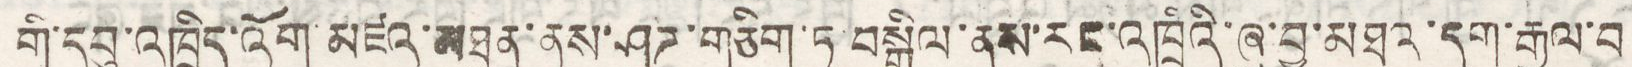གི་དབུ་འཁྲིད་འོག མཛའ་མཐུན་ནུས་ཤུཌ་གཅིག་ཏུ བསྒྲིལ་ནས་རང་འཁྲིའི་ཞུ་བྱ་མཐའ་དག་རྒྱལ་བ
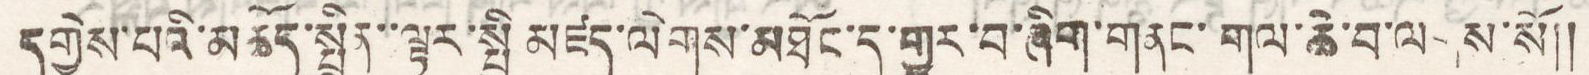དགྱེས་པའི་མཆོད་སྤྲིན་་ལྟར་སྤྱི མཛད་ལེགས་མཐོང་དུ་གྱུར་བ་ཞིག་གནང་གལ་ཆེ་བ་ལགས་སོ།།
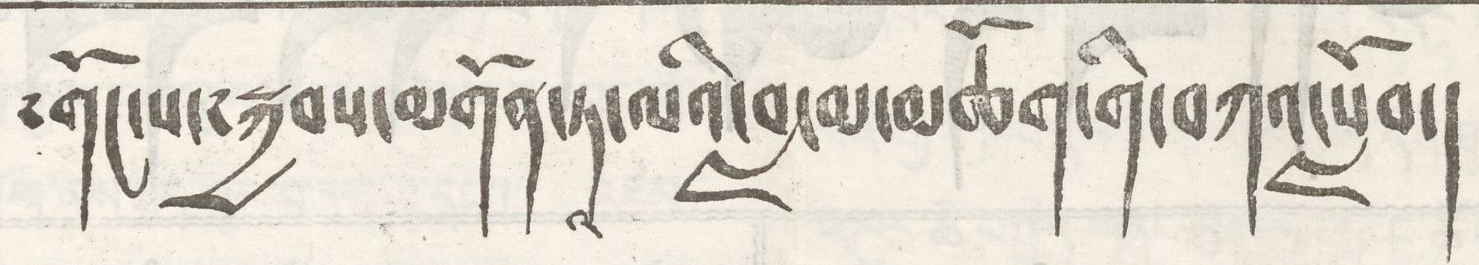༸གོང་ས་༸སྐྱབས་མགོན་ཏཱ་ལའི་བླ་མ་མཆོག་གི་བཀའ་སློབ།
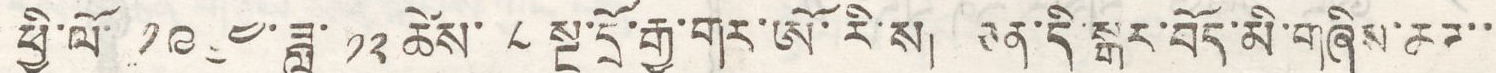ཕྱི་ལོ་ ༡༩༦༤ ཟླ་ ༡༢ ཚེས་ ༨ ཉིན་སྔ་དྲོ་རྒྱ་གར་ཨོ་རི་ས། ཅན་དི་སྒར་བོད་མི་གཞིས་ཆཌ་་
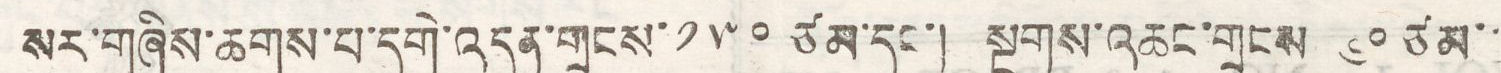སར་གཞིས་ཆགས་པ་དགེ་འདུན་གྲངས་ ༡༥༠ ཙམ་དང་། སྔགས་འཆང་གྲངས ༦༠ ཙམ་
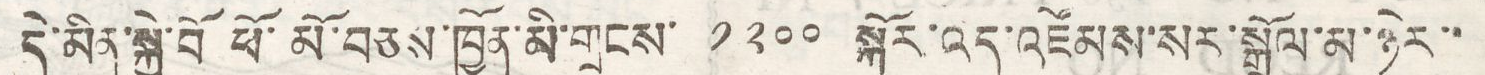དེ་མིན་སྐྱེ་བོ ཕོ་མོ་བཅས་ཁྱོན་མི་གྲངས་ ༡༢༠༠ སྐོར་འདུ་འཛོམས་སར་སྒྲོལ་མ་ཉེར་་
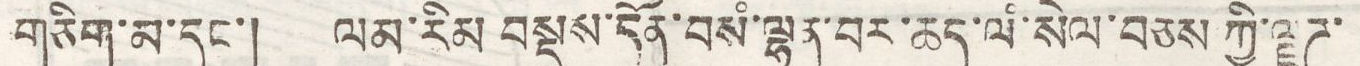གཅིག་མ་དང་། ལམ་རིམ བསྡུས་དོན་བསཾ་ལྷུན་བར་ཆད་ལཾ་སེལ་བཅས ཀྱི་ལྗཌ་
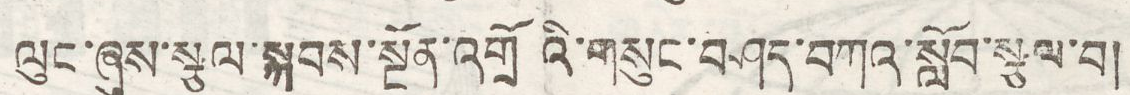ལུང་ཞུས་སྩལ་སྐབས་སྔོན་འགྲོའི་གསུང་བཤད་བཀའ་སློབ་རྩལ་བ།
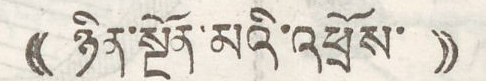(( ཉིན་སྔོན་མའི་འཕྲོས་ ))
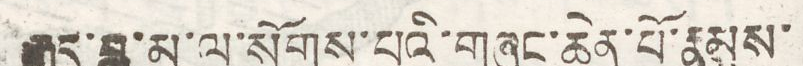རྒྱུད་བླ་མ་ལ་སོགས་པའི་གཞུང་ཆེན་པོ་རྣམས་
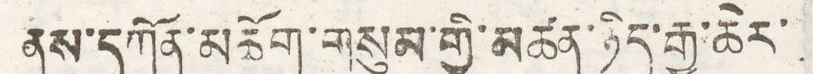བས་དཀོན་མཆོག་གསུམ་གྱི་མཚན་ཉིད་རྒྱ་ཆེར་
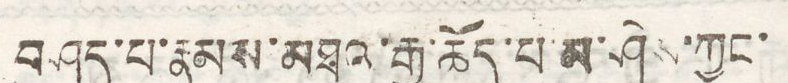བཤད་པ་རྣམས་མཐའ་རྒྱ་ཆོད་པ་མ་ཤེས་ཀྱང་
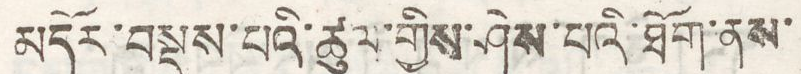མདོར་བསྡུས་པའི་ཚུལ་གྱིས་ཤེས་པའི་ཐོག་ནས་
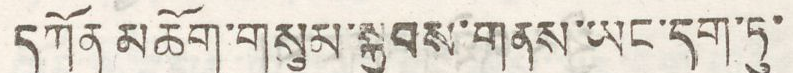དཀོན་མཆོག་གསུམ་སྐྱབས་གནས་ཡང་དག་ཏུ་
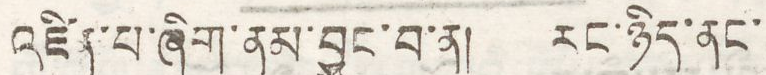འཛིན་པ་ཞིག་ནམ་བྱུང་བ་ན། རང་ཉིད་ནང་
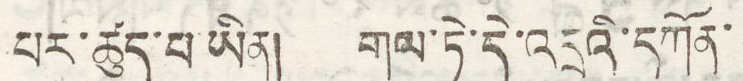པར་ཚུལ་པ ཡིན། གལ་ཏེ་དེ་འདྲའི་དཀོན་
